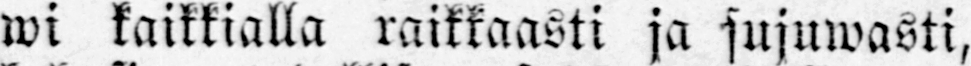wi kaikkialla raikkaasti ja sujuwasti,
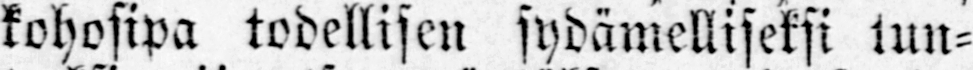kohosipa todellisen sydämelliseksi tun-
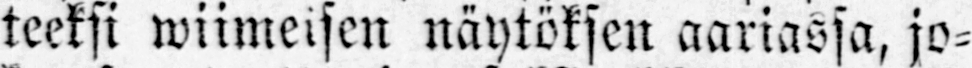teeksi wiimeisen näytöksen aariassa, jo-
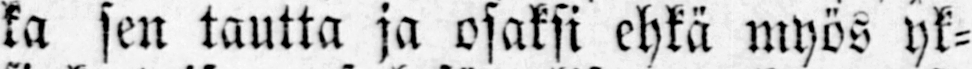ka sen tautta ja osaksi ehkä myös yk-
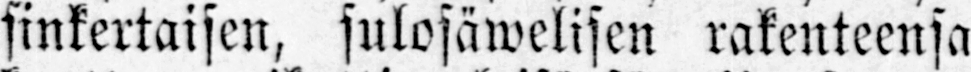sinkertaisen, sulosäwelisen rakenteensa
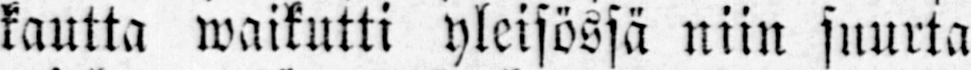kautta waikutti yleisössä niin suurta
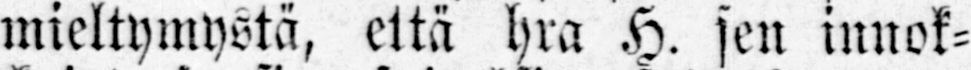mieltymystä, että hra H. sen innok-
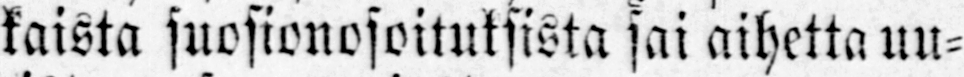kaista suosionosoituksista sai aihetta uu-
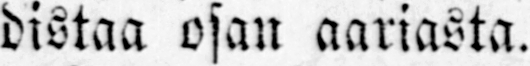distaa osan aariasta.
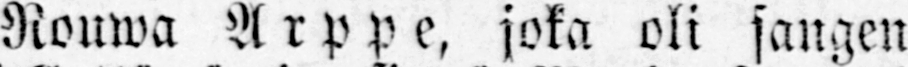Rouwa Arppe, joka oli sangen
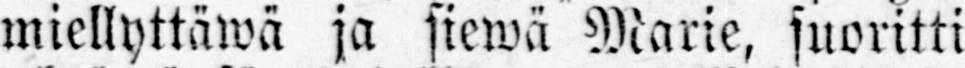miellyttäwä ja siewä Marie, suoritti
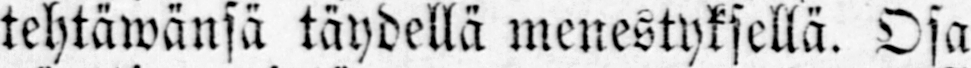tehtäwänsä täydellä menestyksellä. Osa
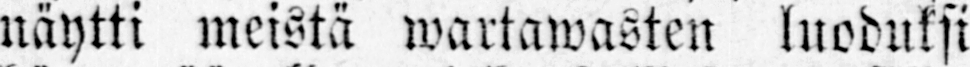näytti meistä wartawasten luoduksi
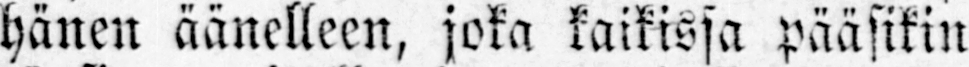hänen äänelleen, joka kaikissa pääsikin
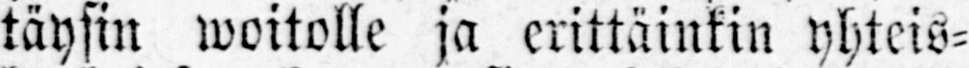täysin woitolle ja erittäinkin yhteis-
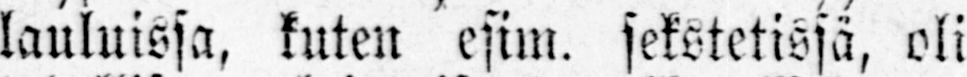lauluissa, kuten esim. sekstetissä, oli
